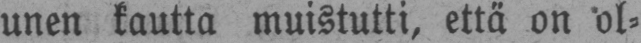unen kautta muistutti, että on ol-
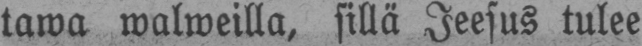tawa walweilla, sillä Jeesus tulee
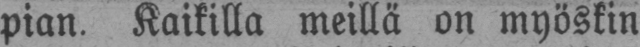pian. Kaikilla meillä on myöskin
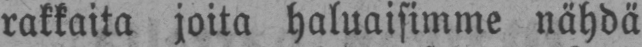rakkaita joita haluaisimme nähdä
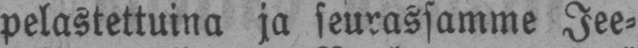pelastettuina ja seurassamme Jee-
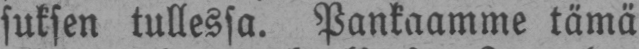suksen tullessa. Pankaamme tämä
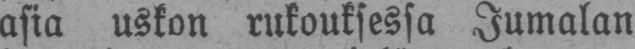asia uskon rukouksessa Jumalan
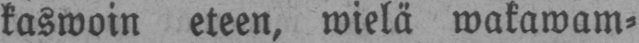kaswoin eteen, wielä wakawam-
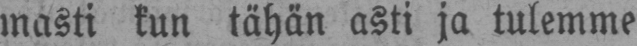masti kun tähän asti ja tulemme
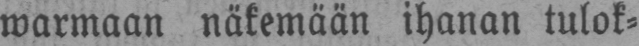warmaan näkemään ihanan tulok-
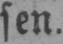sen.
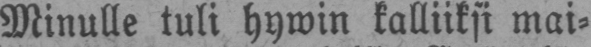Minulle tuli hywin kalliiksi mai-
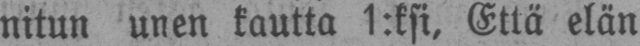nitun unen kautta 1:ksi, Että elän
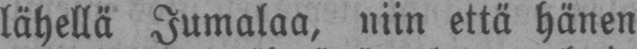lähellä Jumalaa, niin että hänen
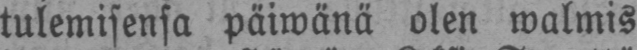tulemisensa päiwänä olen walmis
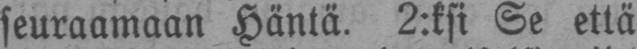seuraamaan Häntä. 2:ksi Se että
